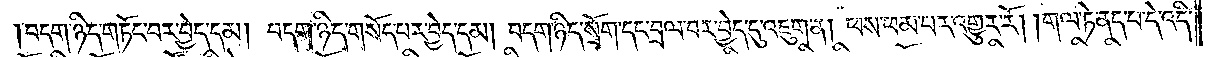བདག་ཉིད་གཏོང་བར་བྱེད་དམ། བདག་ཉིད་གསོད་པར་བྱེད་དམ། བདག་ཉིད་སྲོག་དང་བྲལ་བར་བྱེད་དུ་འཇུག་ན། ཕས་ཕམ་པར་འགྱུར་རོ། །གལ་ཏེ་ནད་པ་དེ་འདི་
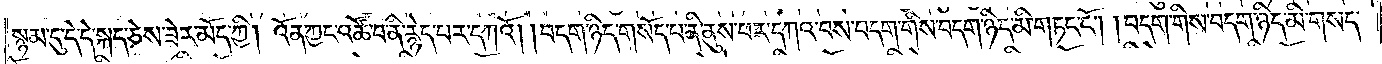སྙམ་དུ་དེ་དེ་སྐད་ཅེས་ཟེར་མོད་ཀྱི། འོན་ཀྱང་འཚོ་བ་ནི་རྙེད་པར་དཀའོ། །བདག་ཉིད་གསོད་པ་ནི་ནུས་པར་དཀའ་བས་བདག་གིས་བདག་ཉིད་མི་གཏང་ངོ༌། །བདག་གིས་བདག་ཉིད་མི་གསད་
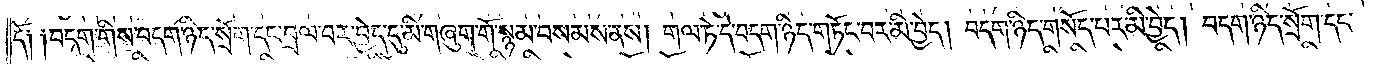དོ༑ ༑བདག་གིས་བདག་ཉིད་སྲོག་དང་བྲལ་བར་བྱེད་དུ་མི་གཞུག་གོ་སྙམ་བསམས་ནས། གལ་ཏེ་དེ་བདག་ཉིད་གཏོང་བར་མི་བྱེད། བདག་ཉིད་གསོད་པར་མི་བྱེད། བདག་ཉིད་སྲོག་དང་
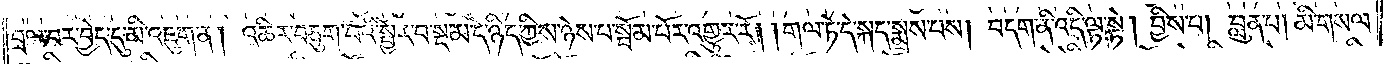བྲལ་བར་བྱེད་དུ་མི་འཇུག་ན། འཆིར་བཅུག་པའི་སྦྱོར་བ་སྔ་མ་དེ་ཉིད་ཀྱིས་ཉེས་པ་སྦོམ་པོར་འགྱུར་རོ། །གལ་ཏེ་དེ་སྐད་སྨྲས་པས། བདག་ནི་འདི་ལྟ་སྟེ། བྱིས་པ། བླུན་པ། མི་གསལ་
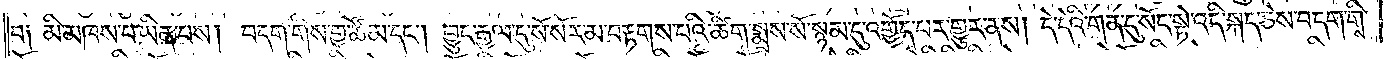བ༑ མི་མཁས་པ་ཡིན་པས། བདག་གིས་གྱ་ཚོམ་དང༌། བྱུང་རྒྱལ་དུ་སོ་སོར་མ་བརྟགས་པའི་ཚིག་སྨྲས་སོ་སྙམ་དུ་འགྱོད་པར་གྱུར་ནས། དེ་དེའི་གན་དུ་སོང་སྟེ་འདི་སྐད་ཅེས་བདག་གིས་
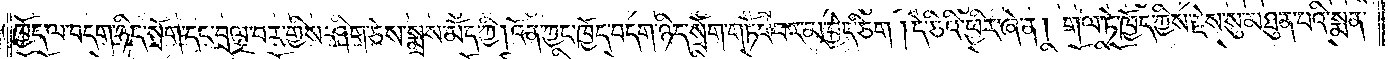ཁྱོད་ལ་བདག་ཉིད་སྲོག་དང་བྲལ་བར་གྱིས་ཤིག་ཅེས་སྨྲས་མོད་ཀྱི། འོན་ཀྱང་ཁྱོད་བདག་ཉིད་སྲོག་གཏོང་བར་མ་བྱེད་ཅིག །དེ་ཅིའི་ཕྱིར་ཞེ་ན། གལ་ཏེ་ཁྱོད་ཀྱིས་རྗེས་སུ་མཐུན་པའི་སྨན་
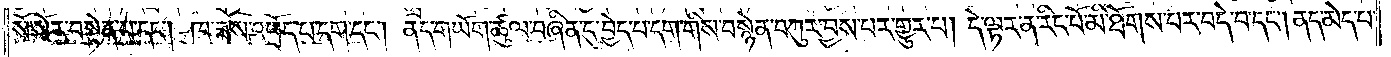སོ་སོར་བསྟེན་པ་དང༌། ཁ་ཟས་འཕྲོད་པ་དག་དང༌། ནད་གཡོག་ཚུལ་བཞིན་དུ་བྱེད་པ་དག་གིས་བསྙེན་བཀུར་བྱས་པར་གྱུར་པ། དེ་ལྟར་ན་རིང་པོ་མི་ཐོགས་པར་བདེ་བ་དང༌། ནད་མེད་པ་
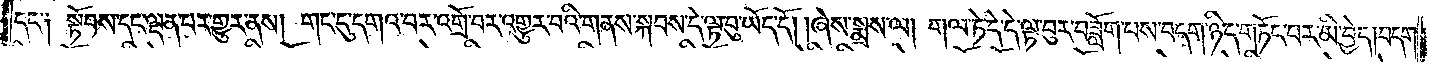དང་༑ སྟོབས་དང་ལྡན་པར་གྱུར་ནས། གང་དུ་དགའ་བར་འགྲོ་བར་འགྱུར་བའི་གནས་སྐབས་ཏེ་ལྟ་བུ་ཡོད་དོ། །ཞེས་སྨྲས་ལ། གལ་ཏེ་དེ་དེ་ལྟ་བུར་བཟློག་པས་བདག་ཉིད་གཏོང་བར་མི་བྱེད། བདག་
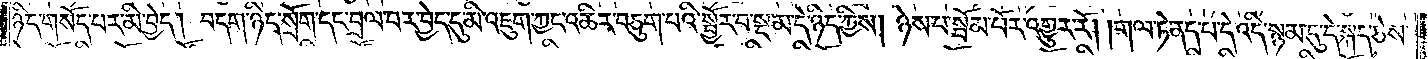ཉིད་གསོད་པར་མི་བྱེད། བདག་ཉིད་སྲོག་དང་བྲལ་བར་བྱེད་དུ་མི་འཇུག་ཀྱང་འཆིར་བཅུག་པའི་སྦྱོར་བ་སྔ་མ་དེ་ཉིད་ཀྱིས། ཉེས་པ་སྦོམ་པོར་འགྱུར་རོ། །གལ་ཏེ་ནད་པ་དེ་འདི་སྙམ་དུ་དེ་སྐད་ཅེས་
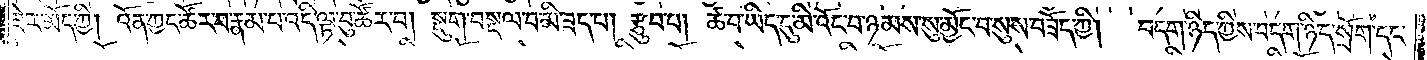ཟེར་མོད་ཀྱི། འོན་ཀྱང་ཚོར་བ་རྣམ་པ་འདི་ལྟ་བུ་ཚོར་བ། སྡུག་བསྔལ་བ་མི་ཟད་པ། རྩུབ་པ། ཚ་བ་ཡིད་དུ་མི་འོང་བ་ཉམས་སུ་མྱོང་བ་སུས་བཟོད་ཀྱི། བདག་ཉིད་ཀྱིས་བདག་ཉིད་སྲོག་དང་
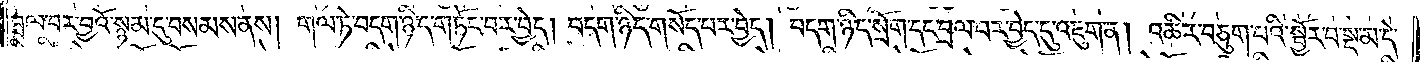བྲལ་བར་བྱའོ་སྙམ་དུ་བསམས་ནས། གལ་ཏེ་བདག་ཉིད་གཏོང་བར་བྱེད། བདག་ཉིད་གསོད་པར་བྱེད། བདག་ཉིད་སྲོག་དང་བྲལ་བར་བྱེད་དུ་འཇུག་ན། འཆིར་བཅུག་པའི་སྦྱོར་བ་སྔ་མ་དེ་
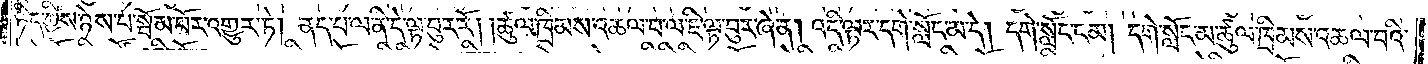ཉིད་ཀྱིས་ཉེས་པ་སྦོམ་པོར་འགྱུར་ཏེ། ནད་པ་ལ་ནི་དེ་ལྟ་བུར་རོ། །ཚུལ་ཁྲིམས་འཆལ་བ་ལ་ཇི་ལྟ་བུར་ཞེ་ན། འདི་ལྟར་དགེ་སློང་མ་དེ། དགེ་སློང་ངམ། དགེ་སློང་མ་ཚུལ་ཁྲིམས་འཆལ་བའི་
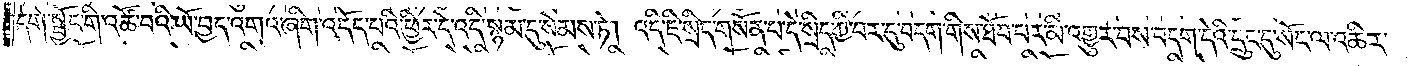དགེ་སྦྱོང་གི་འཚོ་བའི་ཡོ་བྱད་འགའ་ཞིག་འདོད་པའི་ཕྱིར་དེ་འདི་སྙམ་དུ་སེམས་ཏེ། འདི་ཇི་སྲིད་གསོན་པ་དེ་སྲིད་ཀྱི་བར་དུ་བདག་གིས་ཐོབ་པར་མི་འགྱུར་བས་བདག་དེའི་དྲུང་དུ་སོང་ལ་འཆིར་
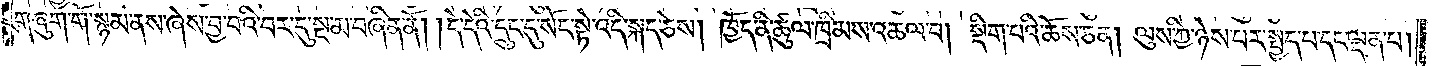གཞུག་གོ་སྙམ་ནས་ཞེས་བྱ་བའི་བར་དུ་སྔ་མ་བཞིན་ནོ། །དེ་དེའི་དྲུང་དུ་སོང་སྟེ་འདི་སྐད་ཅེས། ཁྱོད་ནི་ཚུལ་ཁྲིམས་འཆལ་བ། སྡིག་པའི་ཆོས་ཅན། ལུས་ཀྱི་ཉེས་པར་སྤྱད་པ་དང་ལྡན་པ།
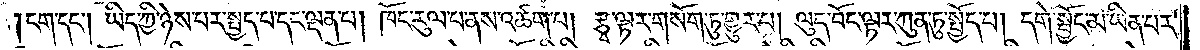ངག་དང༌། ཡིད་ཀྱི་ཉེས་པར་སྤྱད་པ་དང་ལྡན་པ། ཁོང་རུལ་པ་ནས་འཚག་པ། རྩྭ་ལྟར་གསོག་ཏུ་གྱུར་པ། ལུད་བོང་ལྟར་ཀུན་ཏུ་སྤྱོད་པ། དགེ་སྦྱོང་མ་ཡིན་པར་
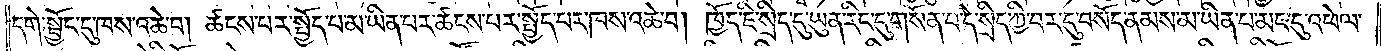དགེ་སྦྱོང་དུ་ཁས་འཆེ་བ། ཚངས་པར་སྤྱོད་པ་མ་ཡིན་པར་ཚངས་པར་སྤྱོད་པར་ཁས་འཆེ་བ། ཁྱོད་ཇི་སྲིད་དུ་ཡུན་རིང་དུ་གསོན་པ་དེ་སྲིད་ཀྱི་བར་དུ་བསོད་ནམས་མ་ཡིན་པ་མང་དུ་འཕེལ་
